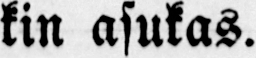kin asukas.
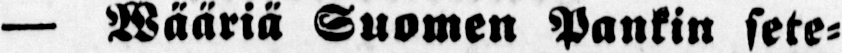— Wääriä Suomen Pankin sete-
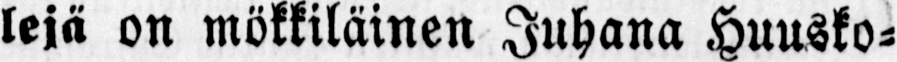lejä on mökkiläinen Juhana Huusko-
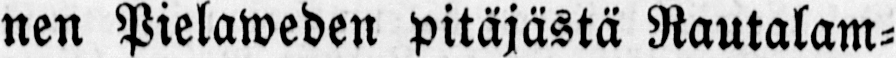nen Pielaweden pitäjästä Rautalam-
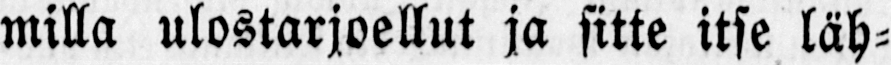milla ulostarjoellut ja sitte itse läh-
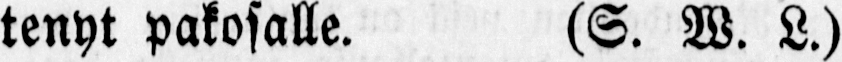tenyt pakosalle. (S. W. L.)
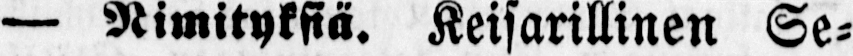— Nimityksiä. Keisarillinen Se-
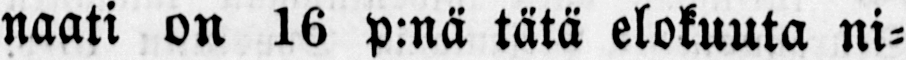naati on 16 p:nä tätä elokuuta ni-
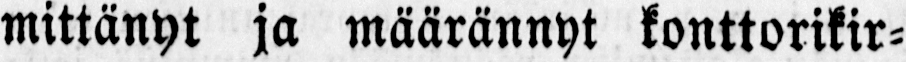mittänyt ja määrännyt konttorikir-
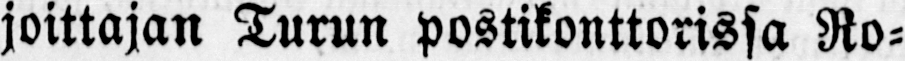joittajan Turun postikonttorissa Ro-
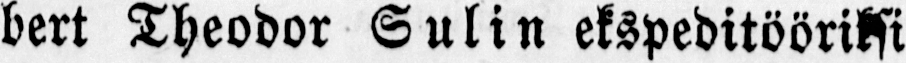bert Theodor Sulin ekspeditööriksi
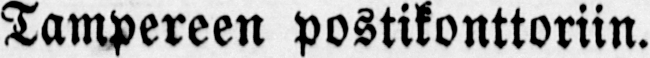Tampereen postikonttoriin.
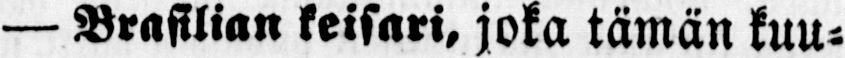— Brasilian keisari, joka tämän kuu-
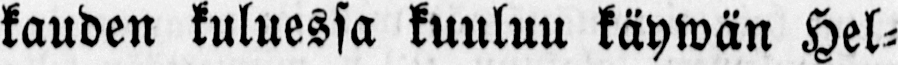kauden kuluessa kuuluu käywän Hel-
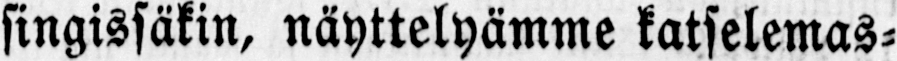singissäkin, näyttelyämme katselemas-
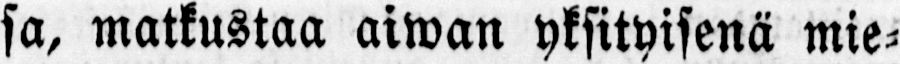sa, matkustaa aiwan yksityisenä mie-
